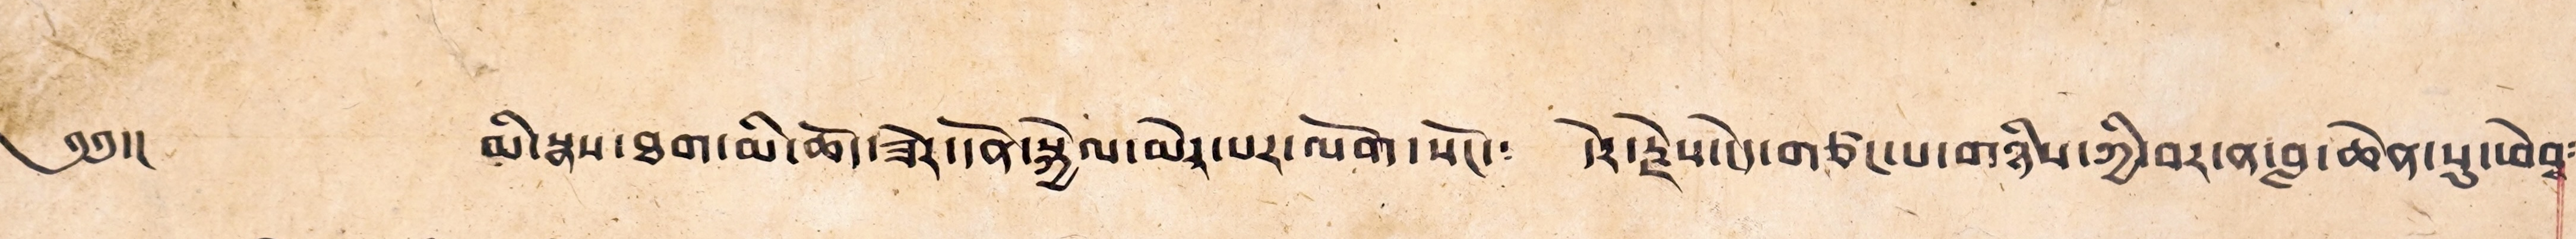༄༅།། མི་སྣས་ཐག་མི་ཆོད་ཟེར་དོན་སྐྱེལ་མེར་པར་ལོག་སོང་༴ དེར་རྗེས་ངེད་གཙང་པ་གཉིས་ཀྱི་བར་ན་བླ་ཆེན་སུ་ཕེབྶ༴
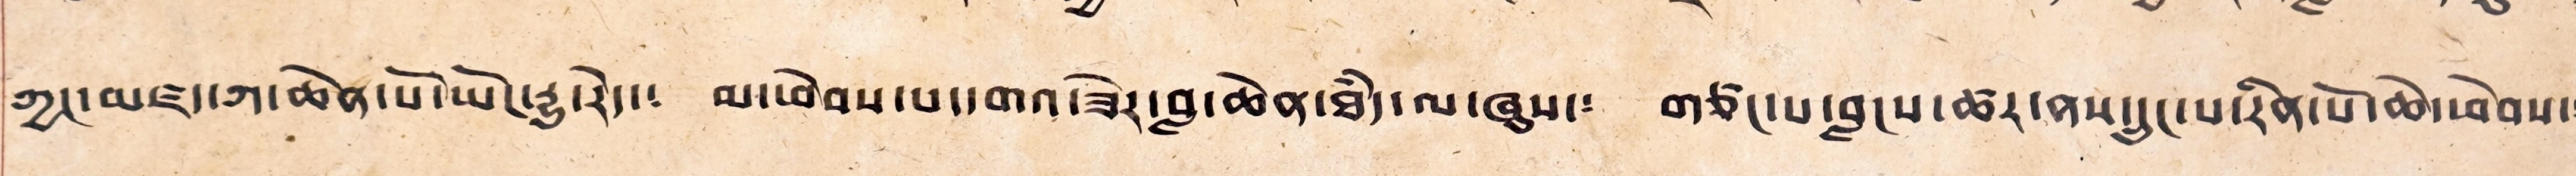ཀྱང་མཛད་ཀ་ཆེན་པོ་ཡོང་རྒྱུ་རེད་༴ མ་ཕེབས་པ་དགའ་ཟེར་བླ་ཆེན་ཐཾད་ལ་ཞུས་༴ གཙང་པ་བླངས་ཚར་ནས་དྲུང་པ་རིན་པོ་ཆེ་ཕེབས་༴
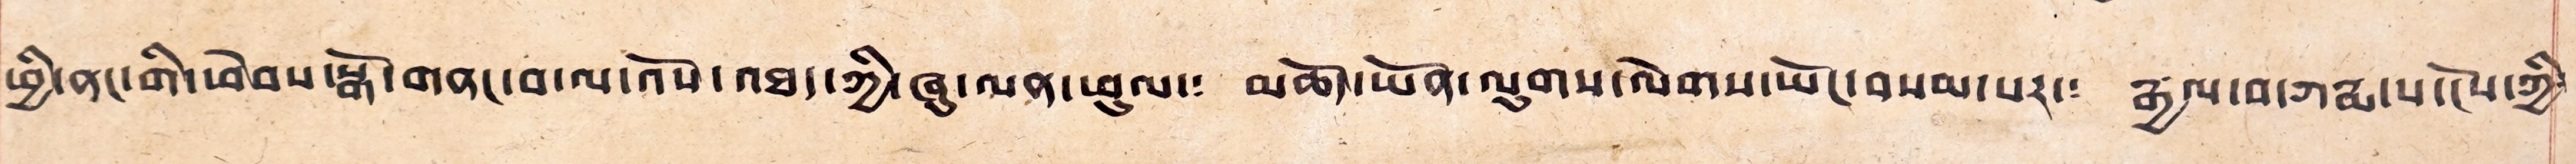ཕྱི་ནང་གི་ཕེབས་སྒོ་གནང་བ་ལ་འོས་འཐད་ཀྱི་ཞུ་ལན་ཕུལ་༴ མཆོད་ཡོན་ལུགས་ལེགས་ཡོང་བསམ་པར་༴ རྒྱལ་བ་ཀརྨ་པ་ངེས་ཀྱི་
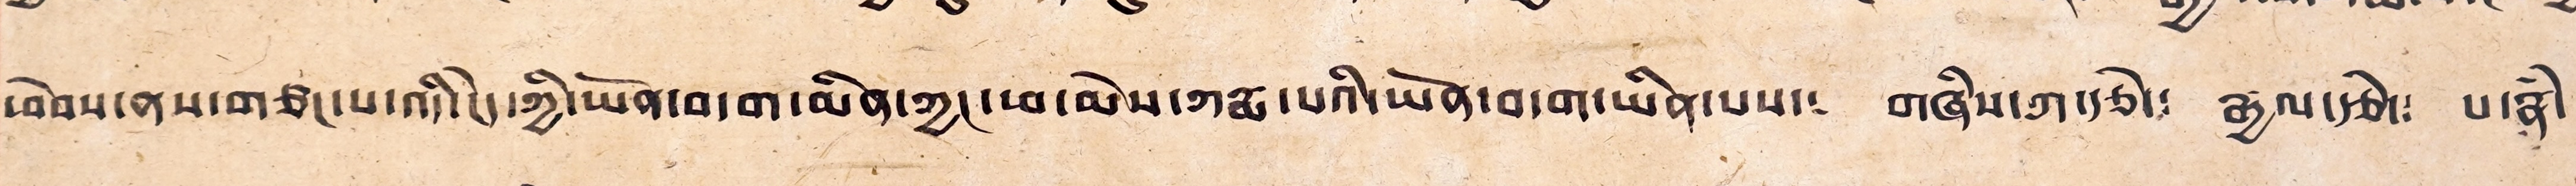ཕེབས་ནས་གཙང་པ་འདི་ངེད་ཀྱི་ཡོན་བདག་མིན་ཀྱང་ཕ་མེས་ཀརྨ་པའི་ཡོན་བདག་ཡིན་པས་༴ གཞིས་ཀ་རྩེ་༴ རྒྱལ་རྩེ༴ པ་རྣཾ་
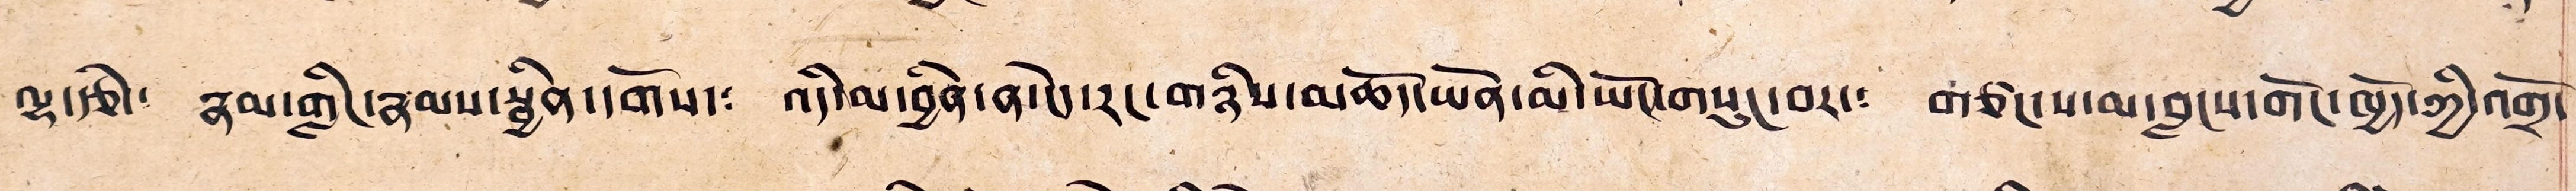ལྷ་རྩེ་༴ རྣམ་གླིང་རྣམས་སྦྱིན་དགོས་༴ འདི་མ་བྱིན་ན་ངེད་རང་གཉིས་མཆོད་ཡོན་མི་ཡོང་གསུང་བར་༴ གཙང་པ་མ་བླངས་གོང་ཁྱོད་ཀྱི་འགྲོ་
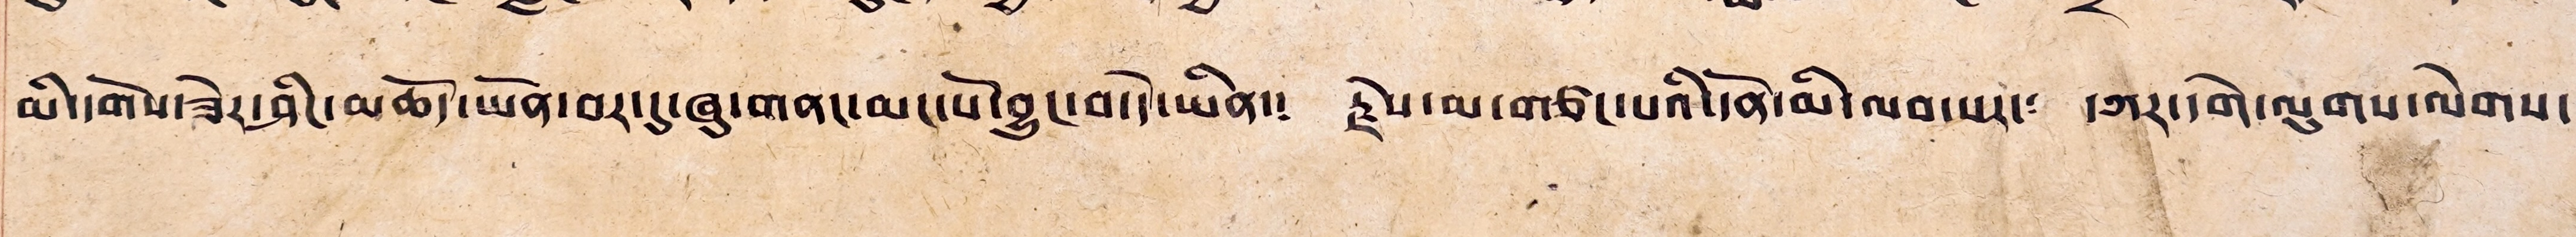མི་དགོས་ཟེར་ཤིང་མཆོད་ཡོན་བར་དུ་ཞུ་གནང་མང་པོ་བྱུང་བ་དེ་ཡིན་༴ རྗེས་མ་གཙང་པའི་དོན་མི་ལབ་པར་༴ དཀར་དགེ་ལུགས་ལེགས་
